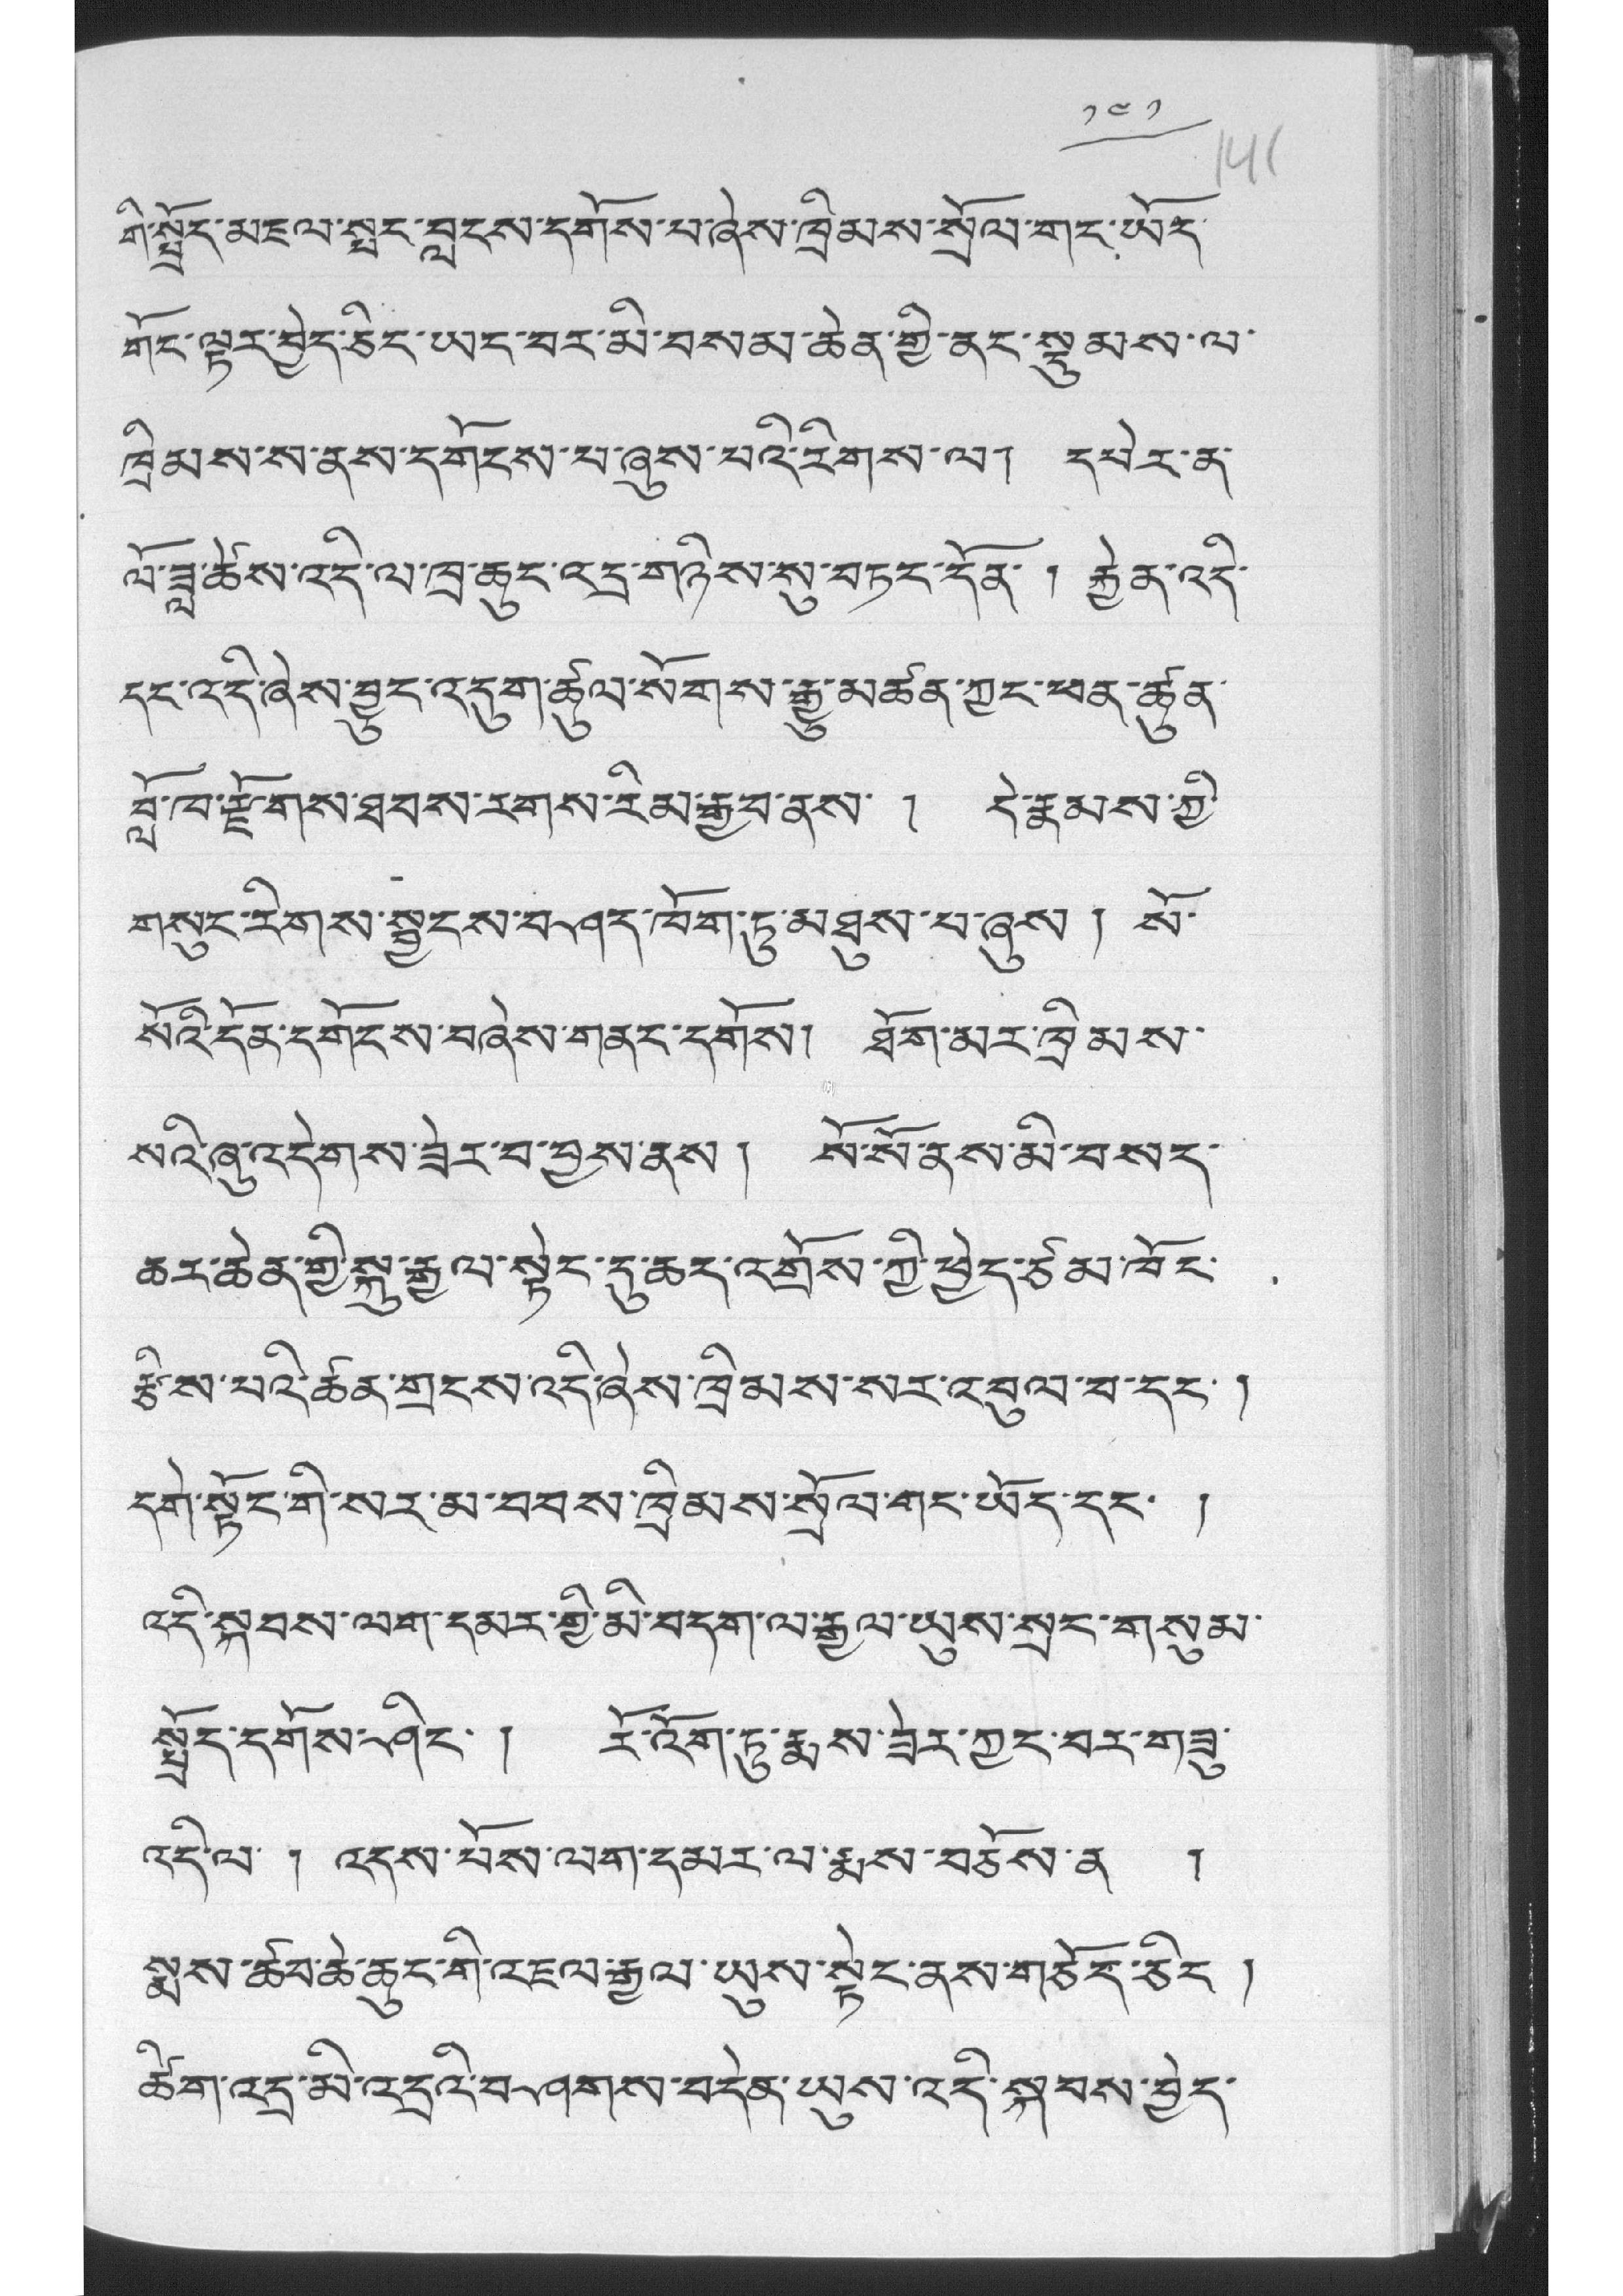༡༤༡
གི་སྤྲོད་མཇལ་སྤང་བླངས་དགོས་པ་ཞེས་ཁྲིམས་སྲོལ་གང་ཡོད་
གོང་ལྟར་བྱེད་ཅིང་ཡང་བར་མི་བསམ་ཆེན་གྱི་ནང་སྡུམས་ལ་
ཁྲིམས་ས་ནས་དགོངས་པ་ཞུས་པའི་རིགས་ལ། དཔེར་ན་
ལོ་ཟླ་ཚེས་འདི་ལ་ཁྲ་ཆུང་འདྲ་གཉིས་སུ་བཏང་དོན་ ། རྐྱེན་འད་
དང་འདི་ཞེས་བྱུང་འདུག་ཚུལ་སོགས་རྒྱུ་མཚན་ཀྱང་ཕན་ཚུན་
བློ་ཁ་རྫོགས་ཐབས་རིགས་རིམ་རྒྱབ་ནས་ ། དེ་རྣམས་ཀྱི་
གསུང་རིགས་སྦྱངས་བཤད་ཁོག་ཏུ་མཐུས་པ་ཞུས ། སོ་
སོའི་དོན་དགོངས་བཞེས་གནང་དགོས། ཐོག་མར་ཁྲིམས་
སའི་ཞུ་འདེགས་ཟེར་བ་བྱས་ནས། སོ་སོ་ནས་མི་བསད་
ཆར་ཆེན་གྱི་སྐུ་རྒྱལ་སྟེང་དུ་ཆད་འགྲོས་ཀྱི་ཕྱེད་ཙམ་ཁོང་
རྩིས་པའི་ཚན་གྲངས་འདི་ཞེས་ཁྲིམས་སར་འབུལ་བ་དང་།
དགེ་སྟོང་གི་སར་མ་བབས་ཁྲིམས་སྲོལ་གང་ཡོད་དང་ །
འདི་སྐབས་ལག་དམར་གྱི་མི་བདག་ལ་རྒྱལ་ཡུས་སྲང་གསུམ་
སྤྲོད་དགོས་ཤིང་ ། རོ་འོག་ཏུ་རྨས་ཟེར་ཀྱང་བར་གཟུ་
འདི་ལ་ ། འདས་པོས་ལག་དམར་ལ་རྨས་བཅོས་ན །
སྨས་ཚབ་ཆེ་ཆུང་གི་འཇལ་རྒྱལ་ཡུས་སྟེང་ནས་གཅོད་ཅིང །
ཚིག་འདྲ་མི་འདྲའི་བཤགས་བདེན་ཡུས་འདི་སྐབས་བྱེད་
